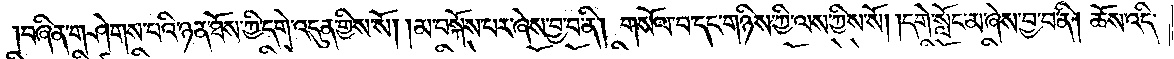བཞིན་གཤེགས་པའི་ཉན་ཐོས་ཀྱི་དགེ་འདུན་གྱིས་སོ། །མ་བསྐོས་པར་ཞེས་བྱ་བ་ནི། གསོལ་བ་དང་གཉིས་ཀྱི་ལས་ཀྱིས་སོ། །དགེ་སློང་མ་ཞེས་བྱ་བ་ནི། ཆོས་འདི་
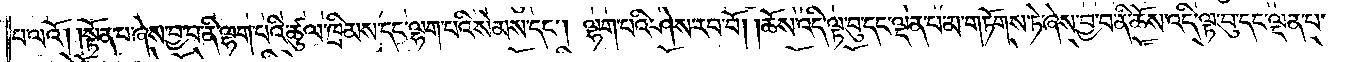བ་ལའོ། །སྟོན་པ་ཞེས་བྱ་བ་ནི་ལྷག་པའི་ཚུལ་ཁྲིམས་དང་ལྷག་པའི་སེམས་དང༌། ལྷག་པའི་ཤེས་རབ་བོ། །ཆོས་འདི་ལྟ་བུ་དང་ལྡན་པ་མ་གཏོགས་ཏེ་ཞེས་བྱ་བ་ནི་ཆོས་འདི་ལྟ་བུ་དང་ལྡན་པ་
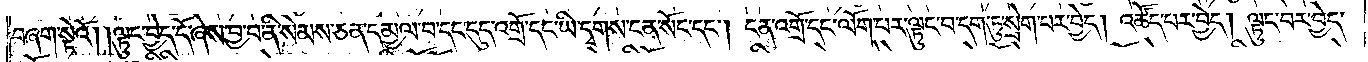བཞག་སྟེའོ། །ལྟུང་བྱེད་དོ་ཞེས་བྱ་བ་ནི་སེམས་ཅན་དམྱལ་བ་དང་དུད་འགྲོ་དང་ཡི་དྭགས་ངན་སོང་དང༌། ངན་འགྲོ་དང་ལོག་པར་ལྟུང་བ་དག་ཏུ་སྲེག་པར་བྱེད། འཚོད་པར་བྱེད། ལྟུང་བར་བྱེད་
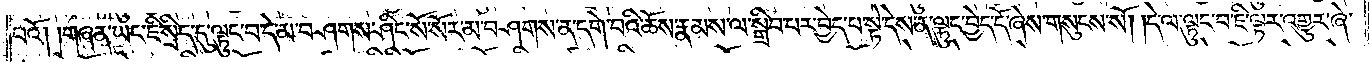པའོ། །གཞན་ཡང་ཇི་སྲིད་དུ་ལྟུང་བ་དེ་མ་བཤགས་ཤིང་སོ་སོར་མ་བཤགས་ན་དགེ་བའི་ཆོས་རྣམས་ལ་སྒྲིབ་པར་བྱེད་པ་སྟེ་དེས་ན་ལྟུང་བྱེད་དོ་ཞེས་གསུངས་སོ། །དེ་ལ་ལྟུང་བ་ཇི་ལྟར་འགྱུར་ཞེ་
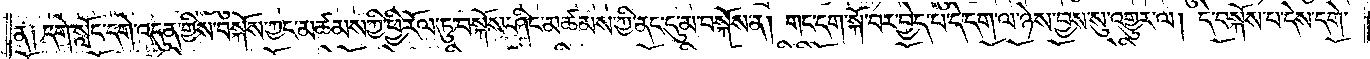ན༑ དགེ་སློང་དགེ་འདུན་གྱིས་བསྐོས་ཀྱང་མཚམས་ཀྱི་ཕྱི་རོལ་ཏུ་བསྐོས་ཤིང་མཚམས་ཀྱི་ནང་དུ་མ་བསྐོས་ན། གང་དག་སྐོ་བར་བྱེད་པ་དེ་དག་ལ་ཉེས་བྱས་སུ་འགྱུར་ལ། དེ་བསྐོས་པ་དེས་དགེ་
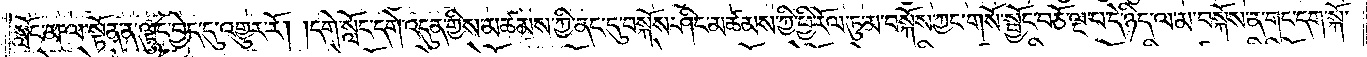སློང་མ་ལ་སྟོན་ན་ལྟུང་བྱེད་དུ་འགྱུར་རོ། །དགེ་སློང་དགེ་འདུན་གྱིས་མཚམས་ཀྱི་ནང་དུ་བསྐོས་ཤིང་མཚམས་ཀྱི་ཕྱི་རོལ་ཏུ་མ་བསྐོས་ཀྱང་གསོ་སྦྱོང་བཅོ་ལྔ་པ་དེ་ཉིད་ལ་མ་བསྐོས་ན་གང་དག་སྐོ་
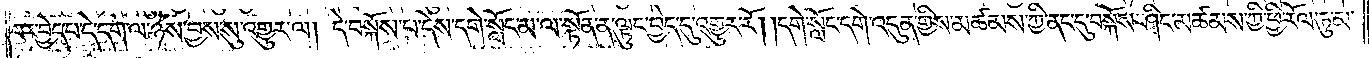བར་བྱེད་པ་དེ་དག་ལ་ཉེས་བྱས་སུ་འགྱུར་ལ། དེ་བསྐོས་པ་དེས་དགེ་སློང་མ་ལ་སྟོན་ན་ལྟུང་བྱེད་དུ་འགྱུར་རོ། །དགེ་སློང་དགེ་འདུན་གྱིས་མཚམས་ཀྱི་ནང་དུ་བསྐོས་ཤིང་མཚམས་ཀྱི་ཕྱི་རོལ་ཏུ་མ་
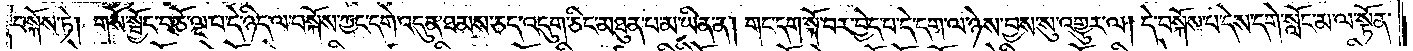བསྐོས་ཏེ། གསོ་སྦྱོང་བཅོ་ལྔ་པ་དེ་ཉིད་ལ་བསྐོས་ཀྱང་དགེ་འདུན་ཐམས་ཅད་འདུག་ཅིང་མཐུན་པ་མ་ཡིན་ན། གང་དག་སྐོ་བར་བྱེད་པ་དེ་དག་ལ་ཉེས་བྱས་སུ་འགྱུར་ལ། དེ་བསྐོས་པ་དེས་དགེ་སློང་མ་ལ་སྟོན་
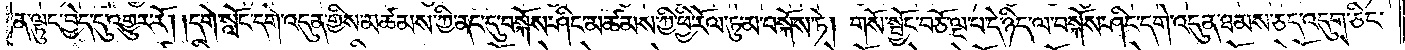ན་ལྟུང་བྱེད་དུ་འགྱུར་རོ། །དགེ་སློང་དགེ་འདུན་གྱིས་མཚམས་ཀྱི་ནང་དུ་བསྐོས་ཤིང་མཚམས་ཀྱི་ཕྱི་རོལ་ཏུ་མ་བསྐོས་ཏེ། གསོ་སྦྱོང་བཅོ་ལྔ་པ་དེ་ཉིད་ལ་བསྐོས་ཤིང་དགེ་འདུན་ཐམས་ཅད་འདུག་ཅིང་
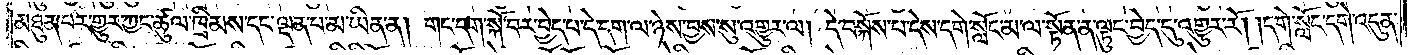མཐུན་པར་གྱུར་ཀྱང་ཚུལ་ཁྲིམས་དང་ལྡན་པ་མ་ཡིན་ན། གང་དག་སྐོ་བར་བྱེད་པ་དེ་དག་ལ་ཉེས་བྱས་སུ་འགྱུར་ལ། དེ་བསྐོས་པ་དེས་དགེ་སློང་མ་ལ་སྟོན་ན་ལྟུང་བྱེད་དུ་འགྱུར་རོ། །དགེ་སློང་དགེ་འདུན་
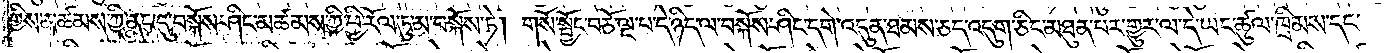གྱིས་མཚམས་ཀྱི་ནང་དུ་བསྐོས་ཤིང་མཚམས་ཀྱི་ཕྱི་རོལ་ཏུ་མ་བསྐོས་ཏེ། གསོ་སྦྱོང་བཅོ་ལྔ་པ་དེ་ཉིད་ལ་བསྐོས་ཤིང་དགེ་འདུན་ཐམས་ཅད་འདུག་ཅིང་མཐུན་པར་གྱུར་ལ་དེ་ཡང་ཚུལ་ཁྲིམས་དང་
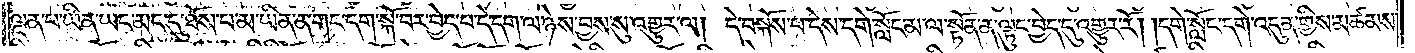ལྡན་པ་ཡིན་ཡང་མང་དུ་ཐོས་པ་མ་ཡིན་ན་གང་དག་སྐོ་བར་བྱེད་པ་དེ་དག་ལ་ཉེས་བྱས་སུ་འགྱུར་ལ། དེ་བསྐོས་པ་དེས་དགེ་སློང་མ་ལ་སྟོན་ན་ལྟུང་བྱེད་དུ་འགྱུར་རོ། །དགེ་སློང་དགེ་འདུན་གྱིས་མཚམས་
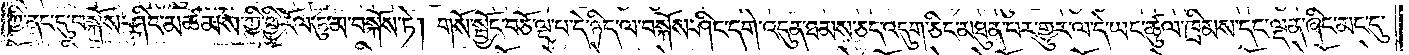ཀྱི་ནང་དུ་བསྐོས་ཤིང་མཚམས་ཀྱི་ཕྱི་རོལ་ཏུ་མ་བསྐོས་ཏེ། གསོ་སྦྱོང་བཅོ་ལྔ་པ་དེ་ཉིད་ལ་བསྐོས་ཤིང་དགེ་འདུན་ཐམས་ཅད་འདུག་ཅིང་མཐུན་པར་གྱུར་ལ་དེ་ཡང་ཚུལ་ཁྲིམས་དང་ལྡན་ཞིང་མང་དུ་
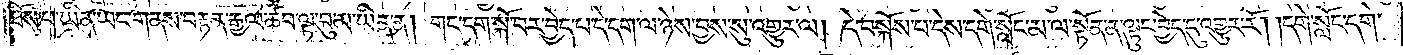ཐོས་པ་ཡིན་ཡང་གནས་བརྟན་རྒྱལ་ཚབ་ལྟ་བུ་མ་ཡིན་ན། གང་དག་སྐོ་བར་བྱེད་པ་དེ་དག་ལ་ཉེས་བྱས་སུ་འགྱུར་ལ། དེ་བསྐོས་པ་དེས་དགེ་སློང་མ་ལ་སྟོན་ན་ལྟུང་བྱེད་དུ་འགྱུར་རོ། །དགེ་སློང་དགེ་
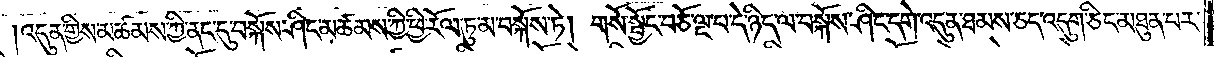འདུན་གྱིས་མཚམས་ཀྱི་ནང་དུ་བསྐོས་ཤིང་མཚམས་ཀྱི་ཕྱི་རོལ་ཏུ་མ་བསྐོས་ཏེ། གསོ་སྦྱོང་བཅོ་ལྔ་པ་དེ་ཉིད་ལ་བསྐོས་ཤིང་དགེ་འདུན་ཐམས་ཅད་འདུག་ཅིང་མཐུན་པར་
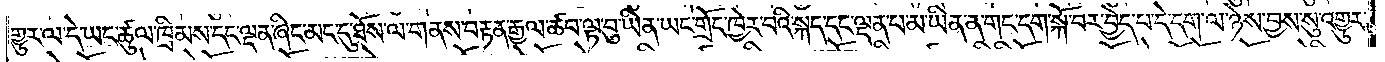གྱུར་ལ་དེ་ཡང་ཚུལ་ཁྲིམས་དང་ལྡན་ཞིང་མང་དུ་ཐོས་ལ་གནས་བརྟན་རྒྱལ་ཚབ་ལྟ་བུ་ཡིན་ཡང་གྲོང་ཁྱེར་བའི་སྐད་དང་ལྡན་པ་མ་ཡིན་ན་གང་དག་སྐོ་བར་བྱེད་པ་དེ་དག་ལ་ཉེས་བྱས་སུ་འགྱུར་
